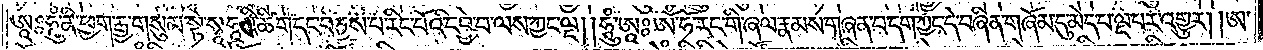ཨཱཿ ཧཱུཾ་ནི་ཕྱག་རྒྱ་གསུམ་སྟེ་སྭཱཧཱའི་ཚིག་དང་བཅས་པ་རིང་པོའི་དབྱེ་བ་ལས་ཀྱང་ལྔ། །ཧཱུཾ་ཨཱཿ ཨོཾ་ཧོ་རང་གི་ཞལ་རྣམས་གཞན་པ་དག་ཀྱང་དེ་བཞིན་གཞོམ་དུ་མེད་པ་ལྔ་པར་འགྱུར། །ཨ་
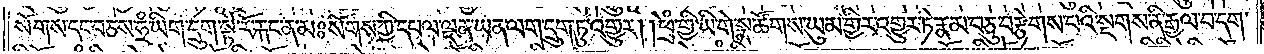སོགས་དང་བཅས་ཧྲཾ་ཡིག་དྲུག་སྟེ་རོ་རྐང་ན་མཿ སོགས་ཀྱི་དཔལ་ལྡན་ཡན་ལག་དྲུག་ཏུ་འགྱུར། །ཕྲེཾ་གྱི་ཡི་གེ་སྣ་ཚོགས་ཡུམ་གྱི་འགྱུར་ཏེ་རྣམ་བཅུ་བརྩེགས་པའི་སྔགས་ནི་རྒྱལ་བ་དག་
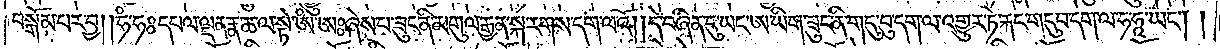བསྒོམ་པར་བྱ། །ཧཾ་ཧཿ དཔལ་ལྡན་རྣ་ཆ་ལ་སྟེ་ཨཾ་ཨཿ ཞེས་པ་ཟུང་ནི་མགུལ་རྒྱན་སྐ་རགས་དག་ལ་འོ། །དེ་བཞིན་དུ་ཡང་ཨ་ཡིག་ཟུང་ནི་གདུ་བུ་དག་ལ་འགྱུར་ཏེ་རྐང་གདུབ་དག་ལ་ཧ་ཧཱ་ཡང༌། །
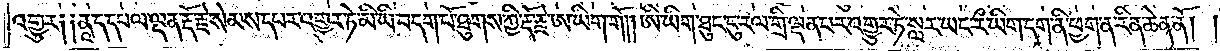འགྱུར། །ནཱ་ད་དཔལ་ལྡན་རྡོ་རྗེ་སེམས་དཔའ་འགྱུར་ཏེ་མི་ཡི་བདག་པོ་ཐུགས་ཀྱི་རྡོ་རྗེ་ཨ་ཡིག་གོ། །ཨི་ཡིག་ཐུང་ངུར་རལ་གྲི་ལྡན་པར་འགྱུར་ཏེ་སླར་ཡང་རྀ་ཡིག་དག་ནི་ཕྱག་ན་རིན་ཆེན་ནོ། །
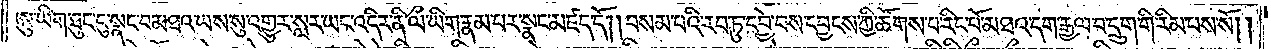ཨུ་ཡིག་ཐུང་ངུ་སྣང་བ་མཐའ་ཡས་སུ་འགྱུར་སླར་ཡང་འདིར་ནི་ལྀ་ཡིག་རྣམ་པར་སྣང་མཛད་དོ། །བསམ་པའི་རབ་ཏུ་དབྱེ་བས་དབྱངས་ཀྱི་ཚོགས་པ་རིང་པོ་མཐའ་དག་རྒྱལ་བ་དྲུག་གི་རིམ་པས་སོ། །
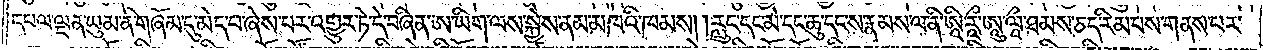དཔལ་ལྡན་ཡུམ་ནི་གཞོམ་དུ་མེད་པ་ཞེས་པར་འགྱུར་ཏེ་དེ་བཞིན་ཨ་ཡིག་ལས་སྐྱེས་ནམ་མཁའ་ཁམས། །རླུང་དང་མེ་དང་ཆུ་དང་ས་རྣམས་ལ་ནི་ཨཱི་རཱྀ་ཨཱུ་ལཱྀ་ཐམས་ཅད་རིམ་པས་གནས་པར་
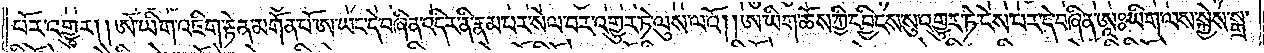པོར་འགྱུར། །ཨོ་ཡིག་འཇིག་རྟེན་མགོན་པོ་ཨ་ཡང་དེ་བཞིན་འདིར་ནི་རྣམ་པར་སེལ་བར་འགྱུར་ཏེ་ལུས་ལའོ། །ཨ་ཡིག་ཆོས་ཀྱི་དབྱིངས་སུ་འགྱུར་ཏེ་ངེས་པར་དེ་བཞིན་ཨཱཿ ཡིག་ལས་སྐྱེས་སྒྲ་
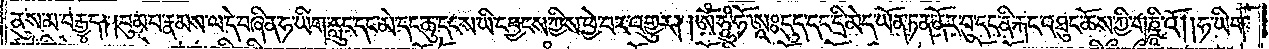ནུས་མ་བརྒྱད། །བུམ་པ་རྣམས་ལ་དེ་བཞིན་ཧ་ཡིག་རླུང་དང་མེ་དང་ཆུ་དང་ས་ཡི་དབྱངས་ཀྱིས་ཕྱེ་བར་འགྱུར། །ཨོཾ་ཧཱུཾ་ཧོ་ཨཱཿདུད་དང་དྲི་མེད་ཡོན་ཏན་ནོར་བུ་དང་ནི་རྐང་འཐུང་ཆོས་ཀྱི་གཎྜི་འོ། །ཧ་ཡིག་
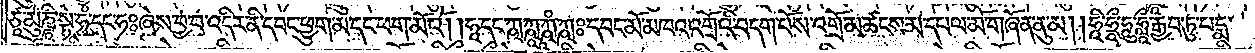ཙཱ་མུཎྜཱི་སྟེ་ཧཾ་དང་ཧཿ ཞེས་བྱ་བ་འདིར་ནི་དབང་ཕྱུག་མ་དང་ཕག་མོའོ། །ཧཱ་དང་ཀྵ་ཀྵཱ་ཀྵཱཾ་ཀྵཿ དབང་མོ་མཁའ་འགྲོའི་བདག་པོས་འགྲོ་མཚངས་མ་དཔལ་མོ་གཞོན་ནུ་མ། །ཧཱི་ཧྲཱྀ་ཧཱུ་ཧླཱྀ་རྒྱབ་ཏུ་པདྨ་
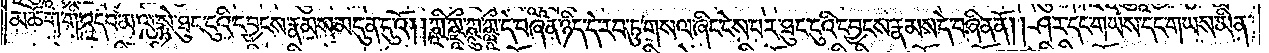མཆོག་གི་འདབ་མ་ལ་སྟེ་ཐུང་ངུའི་དབྱངས་རྣམས་མདུན་དུའོ། །ཀྵི་ཀྵྼཱྀ་ཀྵཱུ་ཀྵླཱྀ་དེ་བཞིན་ཉིད་དེ་རབ་ཏུ་གསལ་ཞིང་ངེས་པར་ཐུང་ངུའི་དབྱངས་རྣམས་དེ་བཞིན་ནོ། །ཤར་དང་གཡས་དང་གཡས་མིན་
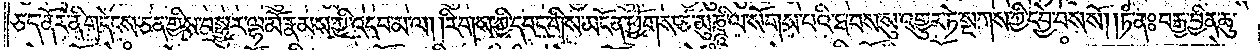ཅད་ནོར་ནི་གདེངས་ཅན་གྱིས་བསྒྱུར་ལྷ་མོ་རྣམས་ཀྱི་འདབ་མ་ལ། །རིགས་ཀྱི་དབང་གིས་མངོན་ཕྱོགས་ཙ་མུཎྜཱི་ལ་སོགས་པའི་ཐབས་སུ་འགྱུར་ཏེ་སྔགས་ཀྱི་དབྱེ་བས་སོ། །ཏཾ་ནཿ བརྒྱ་བྱིན་ཆུ་
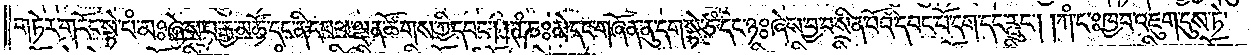གཏེར་གདོང་སྟེ་པཾ་མཿ ཞེས་པ་རྒྱ་མཚོ་དང་ནི་དཔལ་ལྡན་ཚོགས་ཀྱི་དབང༌། །ཊཾ་ཎཿ མེ་དང་གཞོན་ནུ་དག་སྟེ་ཙཾ་དང་ཉཿཞེས་བྱ་བ་སྲིན་པོའི་དབང་པོ་དག་དང་རླུང༌། །ཀཾ་ངཿཁྱབ་འཇུག་དུས་ཏེ་
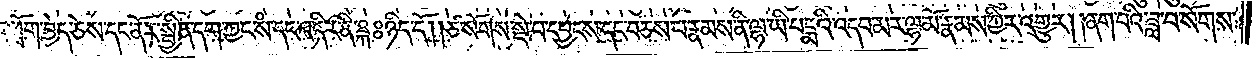འཕྲོག་བྱེད་ཅེས་དང་ནོར་སྦྱིན་དག་ཀྱང་སཾ་དང་འདིར་ནི་ཋྐཿཉིད་དོ། །ཙ་སོགས་སྡེ་བ་དབྱངས་དང་བཅས་པ་རྣམས་ནི་ལྷ་ཡི་པདྨའི་འདབ་མར་ལྷ་མོ་རྣམས་ཀྱིར་འགྱུར། །ནག་པའི་ཟླ་བ་སོགས་
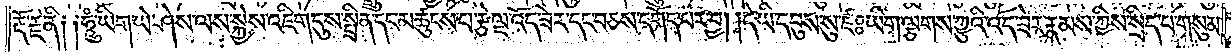རྡོ་རྗེ་ནི༑ ༑ཧཱུཾ་ཡིག་ཡེ་ཤེས་ལས་སྐྱེས་འཇིག་དུས་སྤྲིན་དང་མཚུངས་པ་རྩེ་ལྔ་འོད་ཟེར་དང་བཅས་དགོད་པར་བྱ། །དེ་ཡི་དབུས་སུ་ཛཿ ཡིག་ལྕགས་ཀྱུའི་འོད་ཟེར་རྣམས་ཀྱིས་སྲིད་པ་གསུམ་
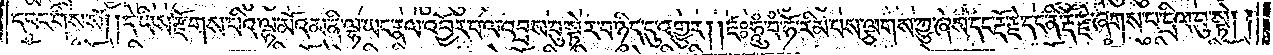དབང་གིས་སོ། །དེ་ཡིས་རྫོགས་པའི་ལྷ་མོའམ་ནི་ལྷ་ཡང་རྣལ་འབྱོར་པ་ལ་འབྲས་བུ་སྟེར་བ་ཉིད་དུ་འགྱུར། །ཛཿཧཱུཾ་བཾ་ཧོ་རིམ་པས་ལྕགས་ཀྱུ་ཞེས་དང་རྡོ་རྗེ་དང་ནི་རྡོ་རྗེ་ཞགས་པ་དྲིལ་བུ་སྟེ། །
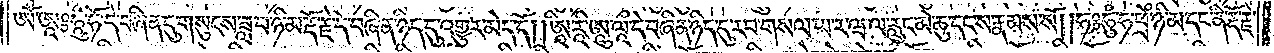ཨོཾ་ཨཱཿཧཱུཾ་ཧོ་དེ་བཞིན་དུ་གསུངས་ཟླ་བ་ཉི་མ་རྡོ་རྗེ་དེ་བཞིན་ཉིད་དུ་འགྱུར་མེད་དོ། །ཨཱི་རཱི་ཨཱུ་ལཱྀ་དེ་བཞིན་ཉིད་དུ་རབ་གསལ་ཡ་ར་ཝ་ལ་རླུང་མེ་ཆུ་དང་ས་རྣམས་སོ། །ཧཿཧཱུཾ་ཧ་ཕྲེཾ་ཉི་མ་དང་ནི་རྡོ་རྗེ་
